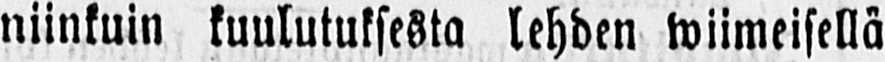niinkuin kuulutuksesta lehden wiimeisellä
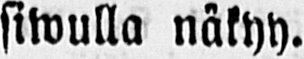siwulla näkyy.
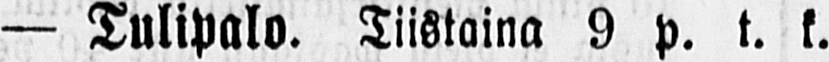— Tulipalo. Tiistaina 9 p. t. k.
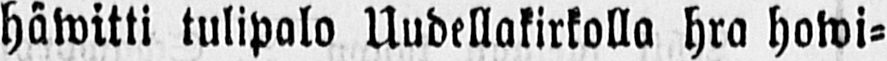häwitti tulipalo Uudellakirkolla hra howi-
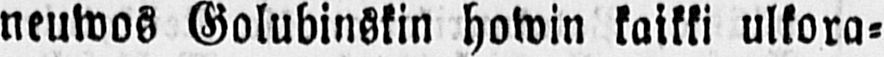neuwos Golubinskin howin kaikki ulkora-
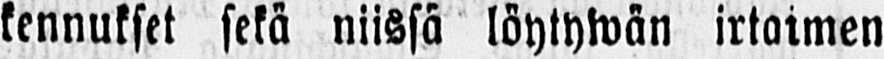kennukset sekä niissä löytywän irtaimen
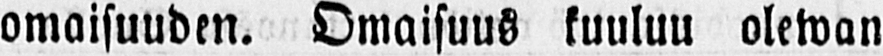omaisuuden. Omaisuus kuuluu olewan
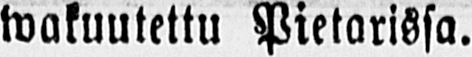wakuutettu Pietarissa.
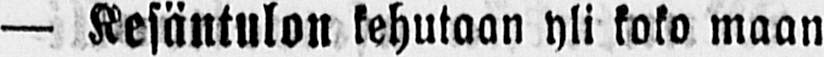— Kesäntulon kehutaan yli koko maan
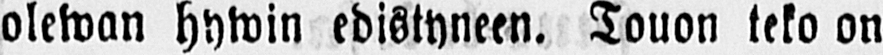olewan hywin edistyneen. Touon teko on
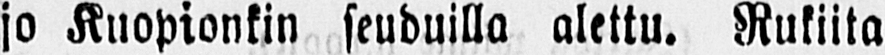jo Kuopionkin seuduilla alettu. Rukiita
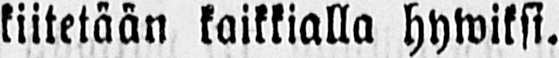kiitetään kaikkialla hywiksi.
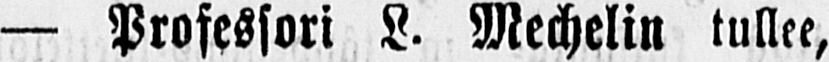— Professori L- Mechelin tullee,
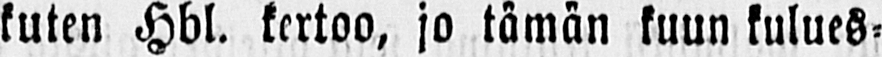kuten Hbl. kertoo, jo tämän kuun kulues-
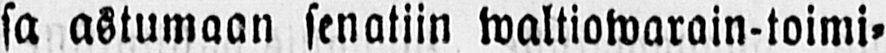sa astumaan senatiin waltiowarain-toimi-
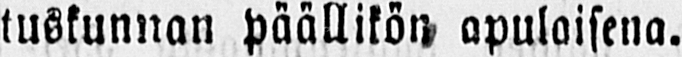tuskunnan päällikön apulaisena.
